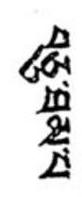བཅུ་ཐམ་པ
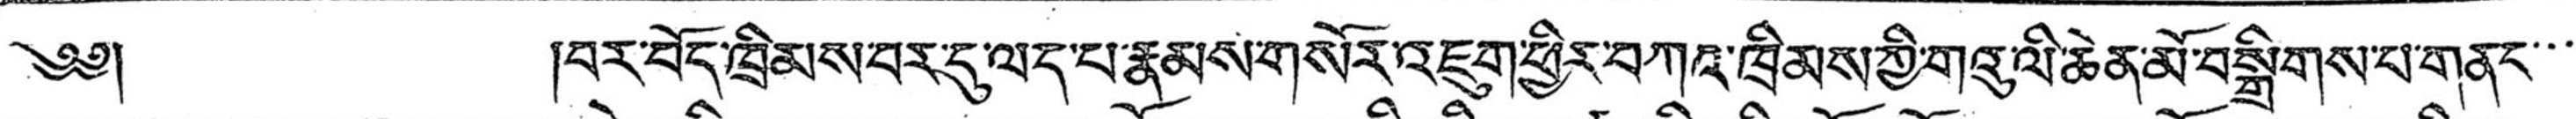བར་བོད་ཁྲིམས་བར་དུ་ལད་པ་རྣམས་གསོརའཇུག་ཕྱིར་བཀའ་ཁྲིམས་ཀྱི་གའུ་ལི་ཆན་མོ་བསྒྲིགས་པ་གནང་་་་
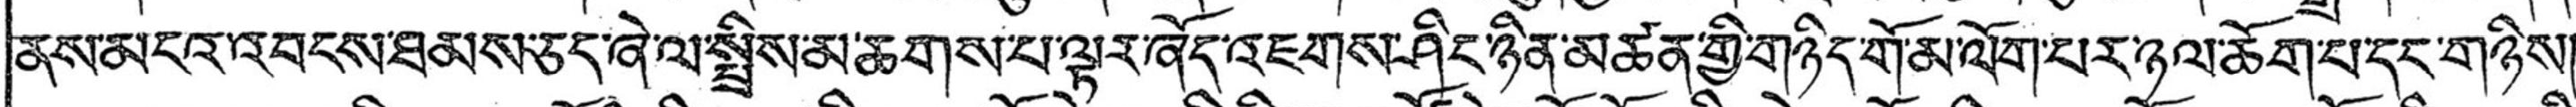ནས་མངའ་འབངས་ཐམས་ཅད་ཞེ་ལ་སྤྲིས་མ་ཆགས་པ་ལྟར་ཞོད་འཇགས་ཤིང་ཉིན་མཚན་གྱི་གཉིད་གོ་མ་ལོག་པར་ཉལ་ཆོག་པ་དང་གཉིས།
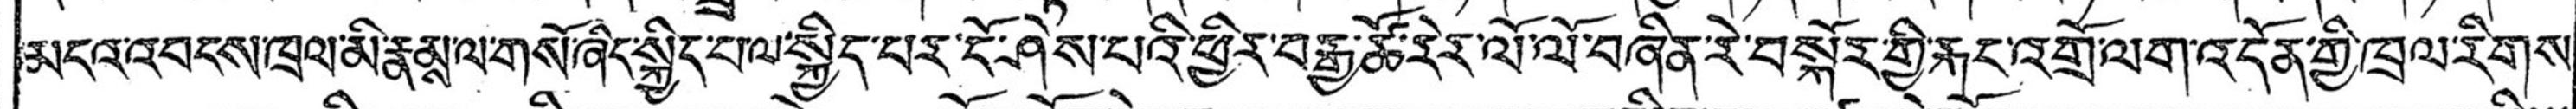མངའ་འབངས་ཁྲལ་མི་རྣམས་ལ་གསོ་ཞིང་སྐྱིད་པར་སྐྱིད་པར་ངོ་ཤེས་པའི་ཕྱིར་བརྒྱ་ཚོ་རེར་ལོ་ལོ་བཞིན་རེ་བསྐོར་གྱི་རྐང་འགྲོ་ལག་འདོན་གྱི་ཁྲལ་རིགས་
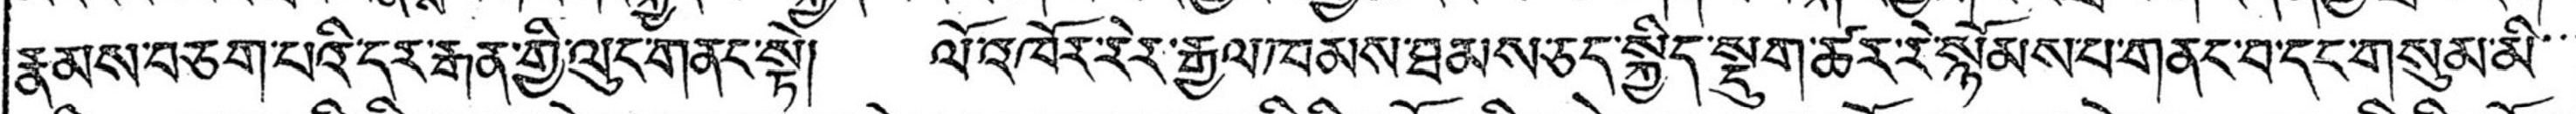རྣམས་བཅག་པའི་དར་རྒན་གྱི་ལུང་གནང་སྟེ། ལོ་འཁོར་རེར་རྒྱལ་ཁམས་ཐམས་ཅད་སྐྱིད་སྡུག་ཚར་རེ་སྙོམས་པ་གནང་བ་དང་གསུམ་མི་་་
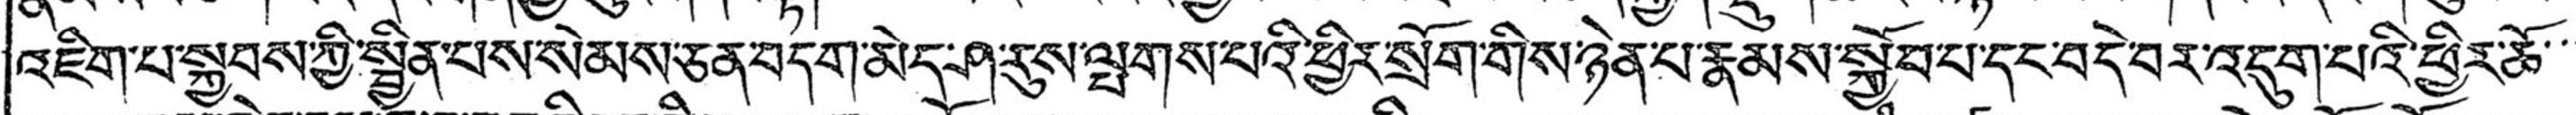འཇིག་པ་སྐྱབས་ཀྱི་སྦྱིན་པས་སེམས་ཅན་བདག་མེད་ཤ་རུས་ལྤགས་པའི་ཕྱིར་སྲོག་གིས་ཉེན་པ་རྣམས་སྐྱོབ་པ་དང་བདེ་བར་འདུག་པའི་ཕྱིར་ཆོ་་་
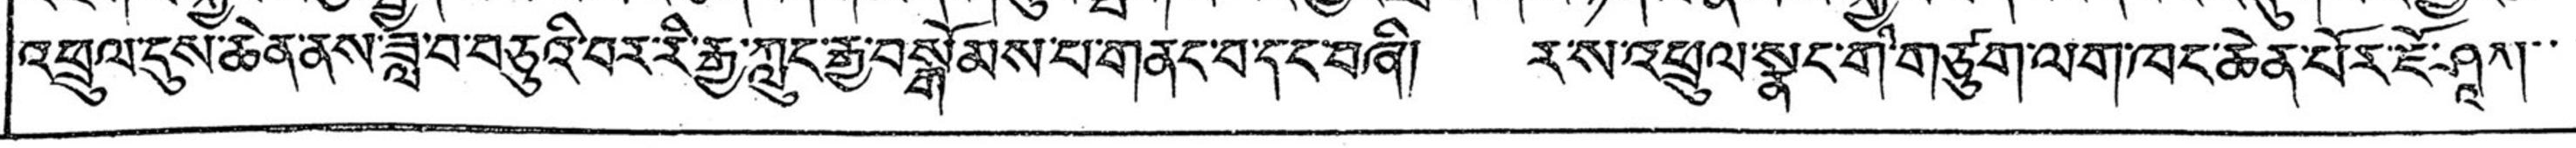འཕྲུལ་དུས་ཆེན་ནས་ཟླ་བ་བཅུའི་བར་རི་རྒྱ་ཀླུང་རྒྱ་བསྒོམས་པ་གནང་བ་དང་བཞི། ར་ས་འཕྲུལ་སྣང་གི་གཙུག་ལག་ཁང་ཆེན་པོར་ཇོ་ཤཱཀ་་་
